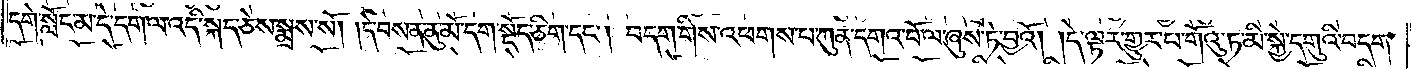དགེ་སློང་མ་དེ་དག་ལ་འདི་སྐད་ཅེས་སྨྲས་སོ། །དེ་བས་ན་ནུ་མོ་དག་སྡོད་ཅིག་དང༌། བདག་གིས་འཕགས་པ་ཀུན་དགའ་བོ་ལ་ཞུས་ཏེ་བྱའོ། །དེ་ལྟར་གྱུར་པ་གོའུ་ཏ་མི་སྐྱེ་དགུའི་བདག་
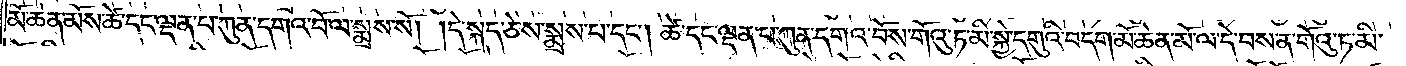མོ་ཆེན་མོས་ཚེ་དང་ལྡན་པ་ཀུན་དགའ་བོ་ལ་སྨྲས་སོ། །དེ་སྐད་ཅེས་སྨྲས་པ་དང༌། ཚེ་དང་ལྡན་པ་ཀུན་དགའ་བོས་གོའུ་ཏ་མི་སྐྱེ་དགུའི་བདག་མོ་ཆེན་མོ་ལ་དེ་བས་ན་གོའུ་ཏ་མི་
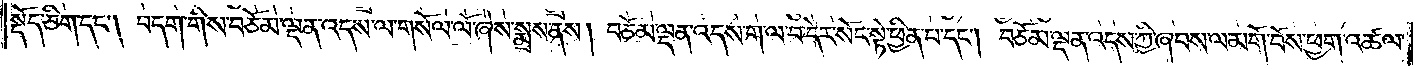སྡོད་ཅིག་དང༌། བདག་གིས་བཅོམ་ལྡན་འདས་ལ་གསོལ་ལོ་ཞེས་སྨྲས་ནས། བཅོམ་ལྡན་འདས་ག་ལ་བ་དེར་སོང་སྟེ་ཕྱིན་པ་དང༌། བཅོམ་ལྡན་འདས་ཀྱི་ཞབས་ལ་མགོ་བོས་ཕྱག་འཚལ་
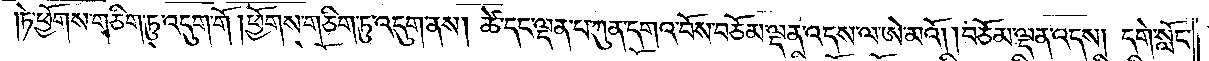ཏེ་ཕྱོགས་གཅིག་ཏུ་འདུག་གོ །ཕྱོགས་གཅིག་ཏུ་འདུག་ནས། ཚེ་དང་ལྡན་པ་ཀུན་དགའ་བོས་བཅོམ་ལྡན་འདས་ལ་ཨེ་མའོ། །བཅོམ་ལྡན་འདས། དགེ་སློང་
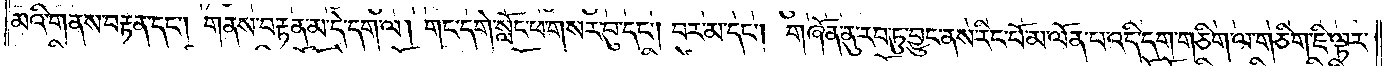མའི་གནས་བརྟན་དང༌། གནས་བརྟན་མ་དེ་དག་ལ། གང་དགེ་སློང་ཕ་གསར་བུ་དང༌། བར་མ་དང༌། གཞོན་ནུ་རབ་ཏུ་བྱུང་ནས་རིང་པོ་མ་ལོན་པ་འདི་དག་གཅིག་ལ་གཅིག་ཇི་ལྟར་
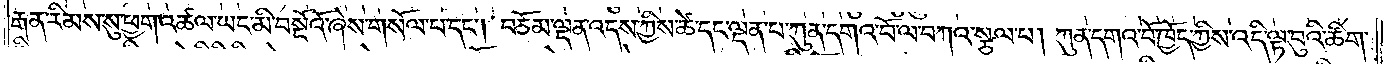རྒན་རིམས་སུ་ཕྱག་འཚལ་ཡང་མི་བསྔོའོ་ཞེས་གསོལ་པ་དང༌། བཅོམ་ལྡན་འདས་ཀྱིས་ཚེ་དང་ལྡན་པ་ཀུན་དགའ་བོ་ལ་བཀའ་སྩལ་པ། ཀུན་དགའ་བོ་ཁྱོད་ཀྱིས་འདི་ལྟ་བུའི་ཚིག་
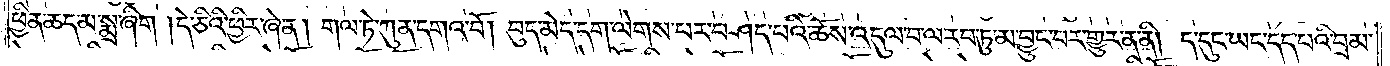ཕྱིན་ཆད་མ་སྨྲ་ཞིག །དེ་ཅིའི་ཕྱིར་ཞེ་ན། གལ་ཏེ་ཀུན་དགའ་བོ། བུད་མེད་དག་ལེགས་པར་བཤད་པའི་ཆོས་འདུལ་བ་ལ་རབ་ཏུ་མ་བྱུང་བར་གྱུར་ན་ནི། ད་དུང་ཡང་དད་པའི་བྲམ་
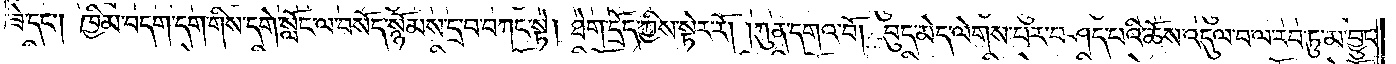ཟེ་དང༌། ཁྱིམ་བདག་དག་གིས་དགེ་སློང་ལ་བསོད་སྙོམས་དྲ་བ་བཀང་སྟེ། ཐེག་དྲོད་ཀྱིས་སྟེར་རོ། །ཀུན་དགའ་བོ། བུད་མེད་ལེགས་པར་བཤད་པའི་ཆོས་འདུལ་བ་ལ་རབ་ཏུ་མ་བྱུང་
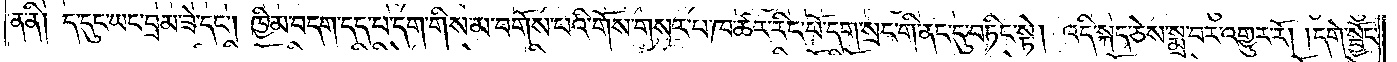ན་ནི། ད་དུང་ཡང་བྲམ་ཟེ་དང༌། ཁྱིམ་བདག་དད་པ་དག་གིས་མ་བགོས་པའི་གོས་གསར་པ་ཁ་ཚར་རིང་པོ་དག་སྲང་གི་ནང་དུ་བཏིང་སྟེ། འདི་སྐད་ཅེས་སྨྲ་བར་འགྱུར་རོ། །དགེ་སྦྱོང་
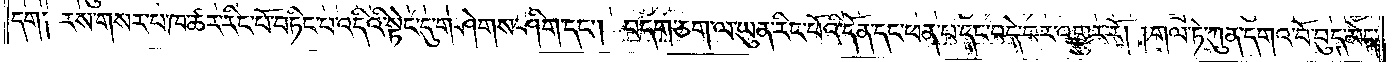དག༑ རས་གསར་པ་ཁ་ཚར་རིང་པོ་བཏིང་པ་འདིའི་སྟེང་དུ་གཤེགས་ཤིག་དང༌། བདག་ཅག་ལ་ཡུན་རིང་པོའི་དོན་དང་ཕན་པ་དང་བདེ་བར་འགྱུར་རོ། །གལ་ཏེ་ཀུན་དགའ་བོ་བུད་མེད་
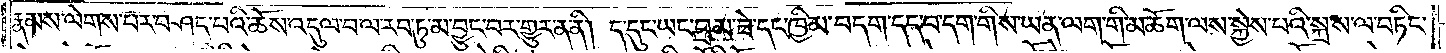རྣམས་ལེགས་པར་བཤད་པའི་ཆོས་འདུལ་བ་ལ་རབ་ཏུ་མ་བྱུང་བར་གྱུར་ན་ནི། ད་དུང་ཡང་བྲམ་ཟེ་དང་ཁྱིམ་བདག་དད་པ་དག་གིས་ཡན་ལག་གི་མཆོག་ལས་སྐྱེས་པའི་སྐྲ་ས་ལ་བཏིང་
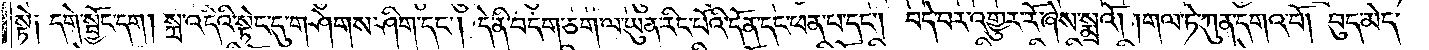སྟེ༑ དགེ་སྦྱོང་དག །སྐྲ་འདིའི་སྟེང་དུ་གཤེགས་ཤིག་དང༌། དེ་ནི་བདག་ཅག་ལ་ཡུན་རིང་པོའི་དོན་དང་ཕན་པ་དང༌། བདེ་བར་འགྱུར་རོ་ཞེས་སྨྲའོ། །གལ་ཏེ་ཀུན་དགའ་བོ། བུད་མེད་
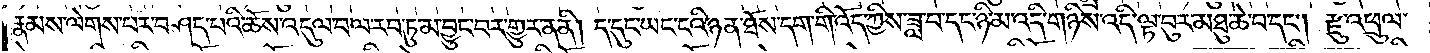རྣམས་ལེགས་པར་བཤད་པའི་ཆོས་འདུལ་བ་ལ་རབ་ཏུ་མ་བྱུང་བར་གྱུར་ན་ནི། ད་དུང་ཡང་ངའི་ཉན་ཐོས་དག་གི་འོད་ཀྱིས་ཟླ་བ་དང་ཉི་མ་འདི་གཉིས་འདི་ལྟ་བུར་མཐུ་ཆེ་བ་དང༌། རྫུ་འཕྲུལ་
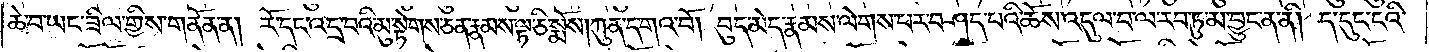ཆེ་བ་ཡང་ཟིལ་གྱིས་གནོན་ན། རོ་དང་འདྲ་བའི་མུ་སྟེགས་ཅན་རྣམས་ལྟ་ཅི་སྨོས། ཀུན་དགའ་བོ། བུད་མེད་རྣམས་ལེགས་པར་བཤད་པའི་ཆོས་འདུལ་བ་ལ་རབ་ཏུ་མ་བྱུང་ན་ནི། ད་དུང་ངའི་
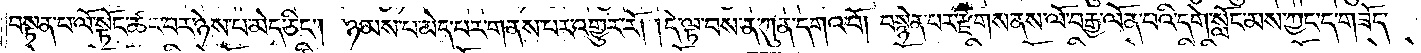བསྟན་པ་ལོ་སྟོང་ཚང་བར་ཉེས་པ་མེད་ཅིང༌། ཉམས་པ་མེད་པར་གནས་པར་འགྱུར་རོ། །དེ་ལྟ་བས་ན་ཀུན་དགའ་བོ། བསྙེན་པར་རྫོགས་ནས་ལོ་བརྒྱ་ལོན་པའི་དགེ་སློང་མས་ཀྱང་ད་གཟོད་
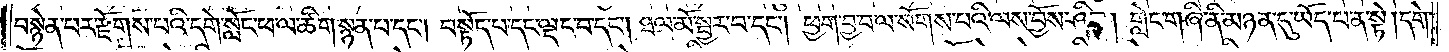བསྙེན་པར་རྫོགས་པའི་དགེ་སློང་ཕ་ལ་ཚིག་སྙན་པ་དང༌། བསྟོད་པ་དང་ལྡང་བ་དང༌། ཐལ་མོ་སྦྱར་བ་དང༌། ཕྱག་བྱ་བ་ལ་སོགས་པའི་ལས་བྱོས་ཤིག །གླེང་གཞི་ནི་མཉན་དུ་ཡོད་པ་ན་སྟེ། དགེ་
